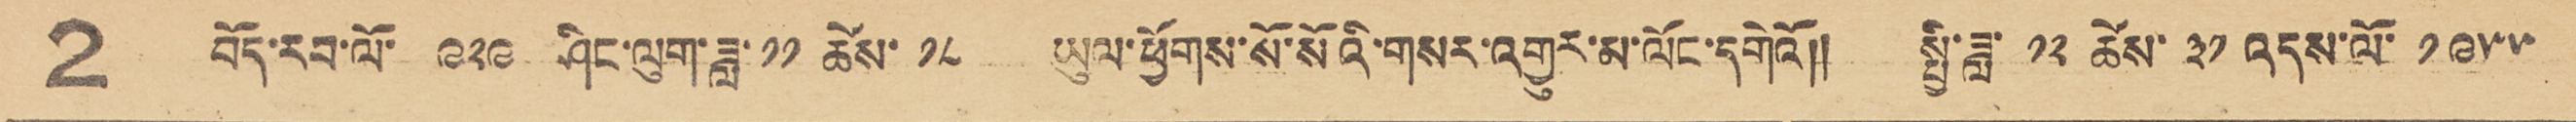2 བོད་རབ་ལོ་ ༩༢༩ ཤིང་ལུག་ཟླ་ ༡༡ ཚེས་ ༡༨ ཡུལ་ཕྱོགས་སོ་སོའི་གསར་འགྱུར་མ་ལོང་དགེའོ།། སྤྱི་ཟླ་ ༡༢ ཚེས་ ༣༡ འདས་ལོ་ ༡༩༥༥
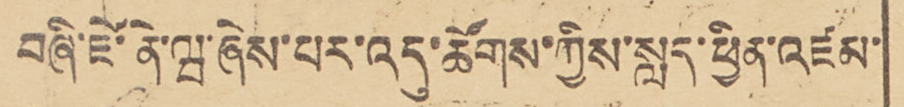བཞི་ཛེ་ནེ་ཝ་ཞེས་པར་འདུ་ཚོགས་ཀྱིས་སླད་ཕྱིན་འཛམ་
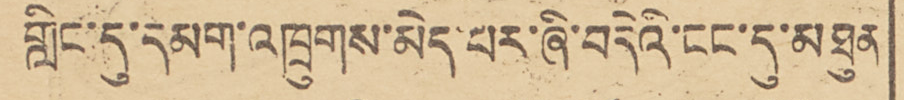གླིང་དུ་དམག་འཁྲུགས་མེད་པར་ཞི་བདེའི་ངང་དུ་མཐུན
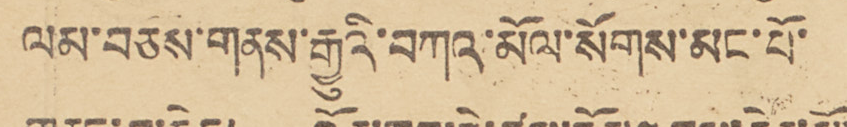ལམ་བཅས་གནས་རྒྱུའི་བཀའ་མོལ་སོགས་མང་པོ་
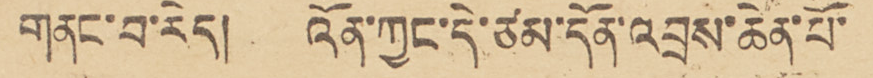གནང་བ་རེད། འོན་ཀྱང་དེ་ཙམ་དོན་འབྲས་ཆེན་པོ་
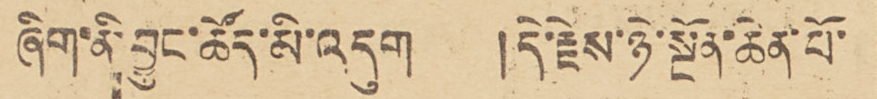ཞིག་ནི་བྱུང་ཚོད་མི་འདུག །དེ་རྗེས་ཉེ་སྔོན་ཆེན་པོ་
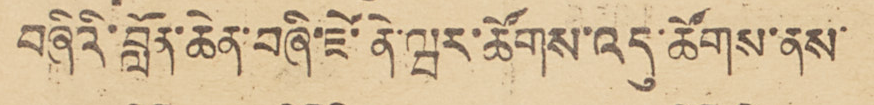བཞིའི་བློན་ཆེན་བཞི་ཛེ་ནེ་ཝར་ཚོགས་འདུ་ཚོགས་ནས་
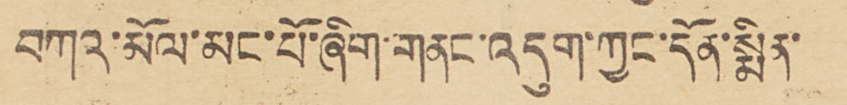བཀའ་མོལ་མང་པོ་ཞིག་གནང་འདུག་ཀྱང་དོན་སྨིན་
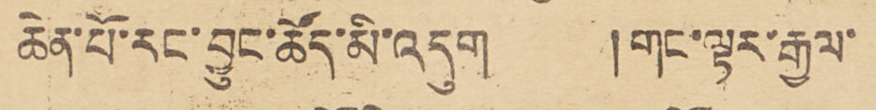ཆེན་པོ་རང་བྱུང་ཚོད་མི་འདུག །གང་ལྟར་རྒྱལ་
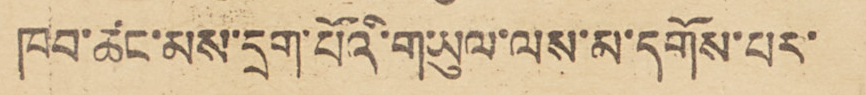ཁབ་ཚང་མས་དྲག་པོའི་གཡུལ་ལས་མ་དགོས་པར་
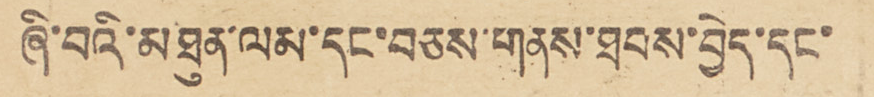ཞི་བའི་མཐུན་ལམ་དང་བཅས་གནས་ཐབས་བྱེད་དང་
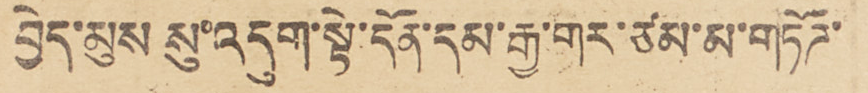བྱེད་མུས སུ་འདུག་སྟེ་དོན་དམ་རྒྱ་གར་ཙམ་མ་གཏོཌ་
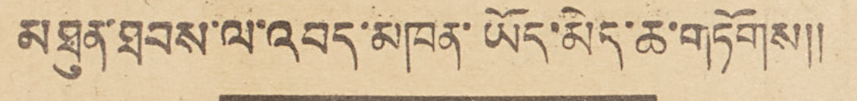མཐུན་ཐབས་ལ་འབད་མཁན་ཡོད་མེད་ཆ་གཏོགས།།
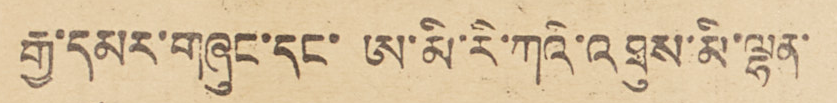རྒྱ་དམར་གཞུང་དང་ ཨ་མི་རི་ཀའི་འཐུས་མི་ལྷན་
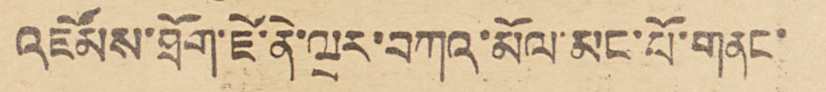འཛོམས་ཐོག་ཛེ་ནེ་ཝར་བཀའ་མོལ་མང་པོ་གནང་
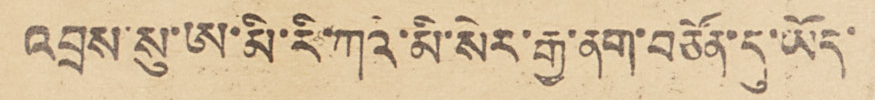འབྲས་སུ་ཨ་མི་རི་ཀའ་མི་སེར་རྒྱ་ནག་བཙོན་དུ་ཡོད་
